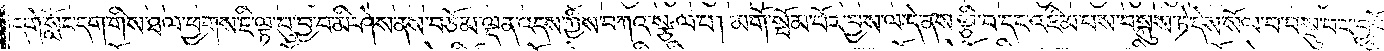དགེ་སློང་དག་གིས་ཐལ་ཕྱགས་ཇི་ལྟ་བུ་བྱ་བ་མི་ཤེས་ནས་བཅོམ་ལྡན་འདས་ཀྱིས་བཀའ་སྩལ་པ། མགོ་སྦོམ་པོར་བྱས་ལ་དེ་ནས་ལྕི་བ་དང་འཇིམ་པས་བསྐུས་ཏེ་དེས་སོལ་བ་བསྡུ་བར་བྱའོ། །
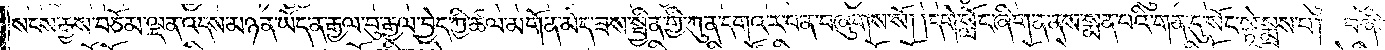སངས་རྒྱས་བཅོམ་ལྡན་འདས་མཉན་ཡོད་ན་རྒྱལ་བུ་རྒྱལ་བྱེད་ཀྱི་ཚལ་མགོན་མེད་ཟས་སྦྱིན་གྱི་ཀུན་དགའ་ར་བ་ན་བཞུགས་སོ། །དགེ་སློང་ཞིག་ན་ནས་སྨན་པའི་གན་དུ་སོང་སྟེ་སྨྲས་པ། བཞིན་
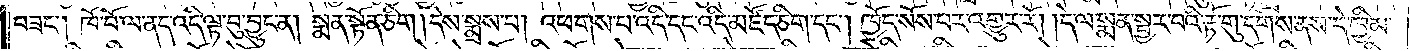བཟང༌། ཁོ་བོ་ལ་ནད་འདི་ལྟ་བུ་བྱུང་ན། སྨན་སྟོན་ཅིག །དེས་སྨྲས་པ། འཕགས་པ་འདི་དང་འདི་མཛོད་ཅིག་དང༌། ཁྱོད་སོས་པར་འགྱུར་རོ། །དེ་ལ་སྨན་སྦྱར་བའི་རྟོ་གུ་དགོས་ནས་དེ་ཁྱིམ་
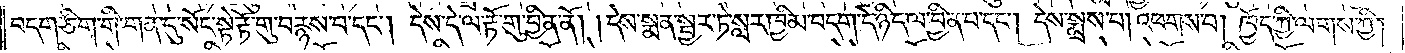བདག་ཅིག་གི་གན་དུ་སོང་སྟེ་རྟོ་གུ་བརྙས་པ་དང༌། དེས་དེ་ལ་རྟོ་གུ་བྱིན་ནོ། །དེས་སྨན་སྦྱར་ཏེ་སླར་ཁྱིམ་བདག་དེ་ཉིད་ལ་བྱིན་པ་དང༌། དེས་སྨྲས་པ། འཕགས་པ། ཁྱོད་ཀྱི་ལགས་ཀྱི།
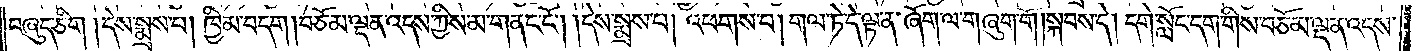བཞུད་ཅིག །དེས་སྨྲས་པ། ཁྱིམ་བདག །བཅོམ་ལྡན་འདས་ཀྱིས་མ་གནང་ངོ༌། །དེས་སྨྲས་པ། འཕགས་པ། གལ་ཏེ་དེ་ལྟ་ན་ཞོག་ལ་གཞུག་གོ །སྐབས་དེ། དགེ་སློང་དག་གིས་བཅོམ་ལྡན་འདས་
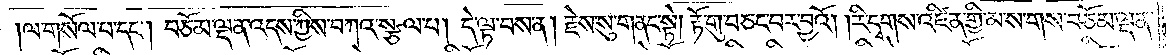ལ་གསོལ་པ་དང༌། བཅོམ་ལྡན་འདས་ཀྱིས་བཀའ་སྩལ་པ། དེ་ལྟ་བས་ན། རྗེས་སུ་གནང་སྟེ། རྟོ་གུ་བཅང་བར་བྱའོ། །རི་དྭགས་འཛིན་གྱི་མ་ས་གས་བཅོམ་ལྡན་
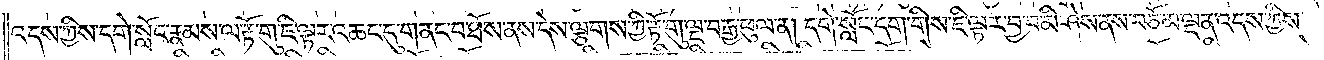འདས་ཀྱིས་དགེ་སློང་རྣམས་ལ་རྟོ་གུ་ཇི་ལྟར་འཆང་དུ་གནང་བ་ཐོས་ནས་དེས་ལྕགས་ཀྱི་རྟོ་གུ་ལྔ་བརྒྱ་ཕུལ་ན། དགེ་སློང་དག་གིས་ཇི་ལྟར་བྱ་བ་མི་ཤེས་ནས་བཅོམ་ལྡན་འདས་ཀྱིས་
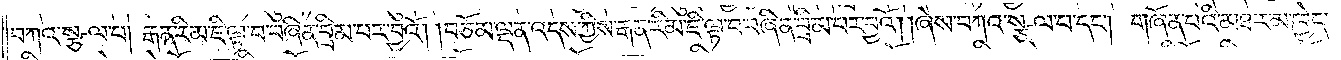བཀའ་སྩལ་པ། རྒན་རིམ་ཇི་ལྟ་བ་བཞིན་བྲིམ་པར་བྱའོ། །བཅོམ་ལྡན་འདས་ཀྱིས་རྒན་རིམ་ཇི་ལྟ་བ་བཞིན་བྲིམ་པར་བྱའོ། །ཞེས་བཀའ་སྩལ་པ་དང༌། གཞོན་པའི་མཐར་མ་ཁྱེད་
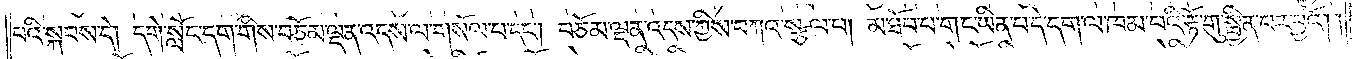པའི་སྐབས་དེ། དགེ་སློང་དག་གིས་བཅོམ་ལྡན་འདས་ལ་གསོལ་པ་དང༌། བཅོམ་ལྡན་འདས་ཀྱིས་བཀའ་སྩལ་པ། མ་ཐོབ་པ་གང་ཡིན་པ་དེ་དག་ལ་ཁམ་པའི་རྟོ་གུ་སྦྱིན་པར་བྱའོ། །
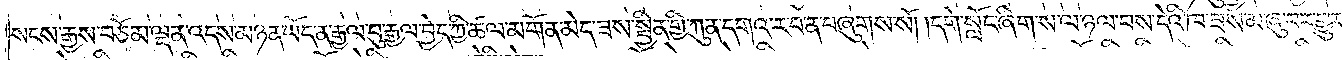སངས་རྒྱས་བཅོམ་ལྡན་འདས་མཉན་ཡོད་ན་རྒྱལ་བུ་རྒྱལ་བྱེད་ཀྱི་ཚལ་མགོན་མེད་ཟས་སྦྱིན་གྱི་ཀུན་དགའ་ར་བ་ན་བཞུགས་སོ། །དགེ་སློང་ཞིག་ས་ལ་ཉལ་བས་དེའི་ཁ་ཟས་མ་ཞུ་བར་གྱུར་
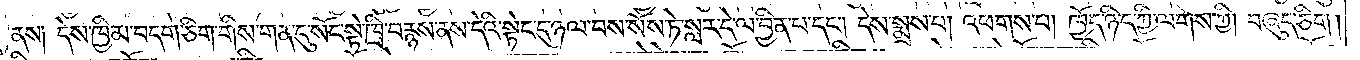ནས། དེས་ཁྱིམ་བདག་ཅིག་གིས་གན་དུ་སོང་སྟེ་ཁྲི་བརྙས་ནས་དེའི་སྟེང་དུ་ཉལ་བས་སོས་ཏེ་སླར་དེ་ལ་བྱིན་པ་དང༌། དེས་སྨྲས་པ། འཕགས་པ། ཁྱོད་ཉིད་ཀྱི་ལགས་ཀྱི། བཞུད་ཅིག།
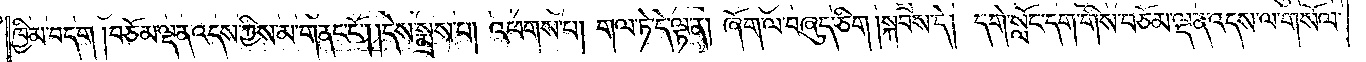ཁྱིམ་བདག །བཅོམ་ལྡན་འདས་ཀྱིས་མ་གནང་ངོ༌། །དེས་སྨྲས་པ། འཕགས་པ། གལ་ཏེ་དེ་ལྟ་ན། ཞོག་ལ་བཞུད་ཅིག །སྐབས་དེ། དགེ་སློང་དག་གིས་བཅོམ་ལྡན་འདས་ལ་གསོལ་
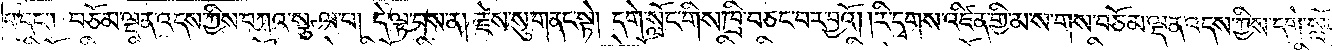པ་དང༌། བཅོམ་ལྡན་འདས་ཀྱིས་བཀའ་སྩལ་པ། དེ་ལྟ་བས་ན། རྗེས་སུ་གནང་སྟེ། དགེ་སློང་གིས་ཁྲི་བཅང་བར་བྱའོ། །རི་དྭགས་འཛིན་གྱི་མ་ས་གས་བཅོམ་ལྡན་འདས་ཀྱིས་དགེ་སློང་
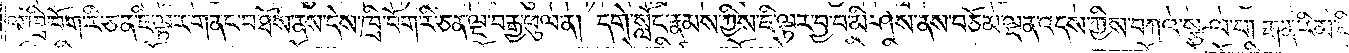ལ་ཁྲི་བོག་རི་ཅན་ཇི་ལྟར་གནང་བ་ཐོས་ནས་དེས་ཁྲི་བོག་རི་ཅན་ལྔ་བརྒྱ་ཕུལ་ན། དགེ་སློང་རྣམས་ཀྱིས་ཇི་ལྟར་བྱ་བ་མི་ཤེས་ནས་བཅོམ་ལྡན་འདས་ཀྱིས་བཀའ་སྩལ་པ། རྒན་རིམ་ཇི་
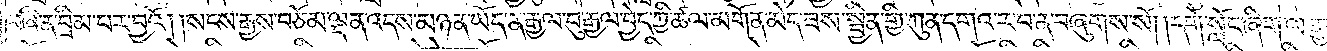བཞིན་བྲིམ་པར་བྱའོ། །སངས་རྒྱས་བཅོམ་ལྡན་འདས་མཉན་ཡོད་ན་རྒྱལ་བུ་རྒྱལ་བྱེད་ཀྱི་ཚལ་མགོན་མེད་ཟས་སྦྱིན་གྱི་ཀུན་དགའ་ར་བ་ན་བཞུགས་སོ། །དགེ་སློང་ཞིག་ལ་རྒྱབ་
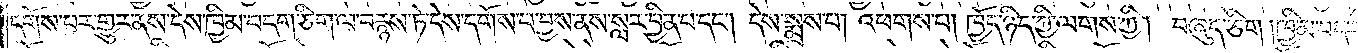དགོས་པར་གྱུར་ནས་དེས་ཁྱིམ་བདག་ཅིག་ལ་བརྙས་ཏེ་དེས་དགོས་པ་བྱས་ནས་སླར་བྱིན་པ་དང༌། དེས་སྨྲས་པ། འཕགས་པ། ཁྱོད་ཉིད་ཀྱི་ལགས་ཀྱི། བཞུད་ཅིག །ཁྱིམ་བདག།
